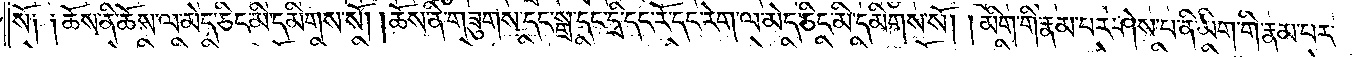སོ། །ཆོས་ནི་ཆོས་ལ་མེད་ཅིང་མི་དམིགས་སོ། །ཆོས་ནི་གཟུགས་དང་སྒྲ་དང་དྲི་དང་རོ་དང་རེག་ལ་མེད་ཅིང་མི་དམིགས་སོ། །མིག་གི་རྣམ་པར་ཤེས་པ་ནི་མིག་གི་རྣམ་པར་
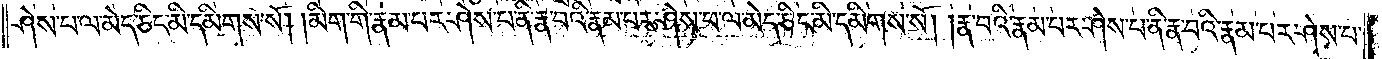ཤེས་པ་ལ་མེད་ཅིང་མི་དམིགས་སོ། །མིག་གི་རྣམ་པར་ཤེས་པ་ནི་རྣ་བའི་རྣམ་པར་ཤེས་པ་ལ་མེད་ཅིང་མི་དམིགས་སོ། །རྣ་བའི་རྣམ་པར་ཤེས་པ་ནི་རྣ་བའི་རྣམ་པར་ཤེས་པ་
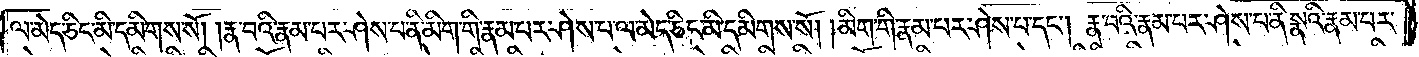ལ་མེད་ཅིང་མི་དམིགས་སོ། །རྣ་བའི་རྣམ་པར་ཤེས་པ་ནི་མིག་གི་རྣམ་པར་ཤེས་པ་ལ་མེད་ཅིང་མི་དམིགས་སོ། །མིག་གི་རྣམ་པར་ཤེས་པ་དང༌། རྣ་བའི་རྣམ་པར་ཤེས་པ་ནི་སྣའི་རྣམ་པར་
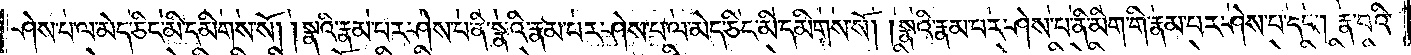ཤེས་པ་ལ་མེད་ཅིང་མི་དམིགས་སོ། །སྣའི་རྣམ་པར་ཤེས་པ་ནི་སྣའི་རྣམ་པར་ཤེས་པ་ལ་མེད་ཅིང་མི་དམིགས་སོ། །སྣའི་རྣམ་པར་ཤེས་པ་ནི་མིག་གི་རྣམ་པར་ཤེས་པ་དང༌། རྣ་བའི་
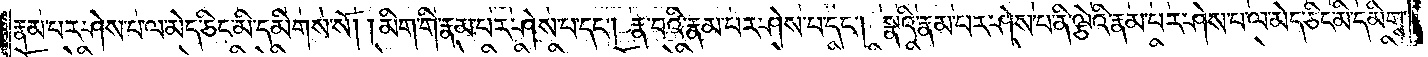རྣམ་པར་ཤེས་པ་ལ་མེད་ཅིང་མི་དམིགས་སོ། །མིག་གི་རྣམ་པར་ཤེས་པ་དང༌། རྣ་བའི་རྣམ་པར་ཤེས་པ་དང༌། སྣའི་རྣམ་པར་ཤེས་པ་ནི་ལྕེའི་རྣམ་པར་ཤེས་པ་ལ་མེད་ཅིང་མི་དམིགས་
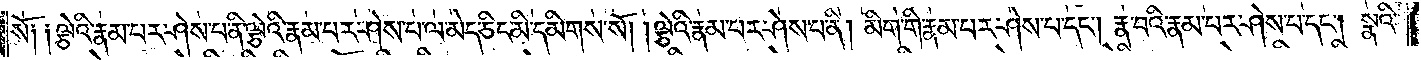སོ། །ལྕེའི་རྣམ་པར་ཤེས་པ་ནི་ལྕེའི་རྣམ་པར་ཤེས་པ་ལ་མེད་ཅིང་མི་དམིགས་སོ། །ལྕེའི་རྣམ་པར་ཤེས་པ་ནི། མིག་གི་རྣམ་པར་ཤེས་པ་དང༌། རྣ་བའི་རྣམ་པར་ཤེས་པ་དང༌། སྣའི་
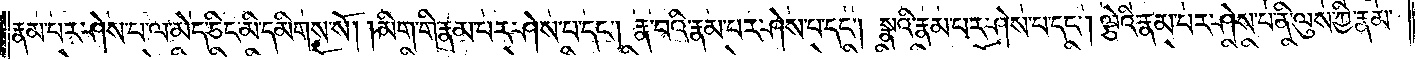རྣམ་པར་ཤེས་པ་ལ་མེད་ཅིང་མི་དམིགས་སོ། །མིག་གི་རྣམ་པར་ཤེས་པ་དང༌། རྣ་བའི་རྣམ་པར་ཤེས་པ་དང༌། སྣའི་རྣམ་པར་ཤེས་པ་དང༌། ལྕེའི་རྣམ་པར་ཤེས་པ་ནི་ལུས་ཀྱི་རྣམ་
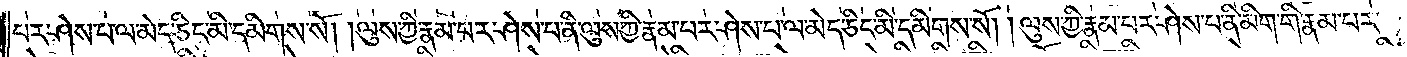པར་ཤེས་པ་ལ་མེད་ཅིང་མི་དམིགས་སོ། །ལུས་ཀྱི་རྣམ་པར་ཤེས་པ་ནི་ལུས་ཀྱི་རྣམ་པར་ཤེས་པ་ལ་མེད་ཅིང་མི་དམིགས་སོ། །ལུས་ཀྱི་རྣམ་པར་ཤེས་པ་ནི་མིག་གི་རྣམ་པར་
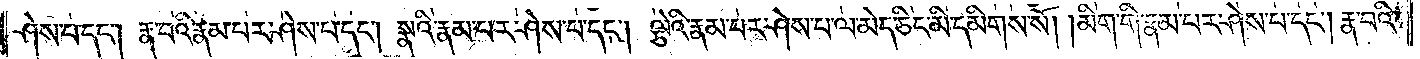ཤེས་པ་དང༌། རྣ་བའི་རྣམ་པར་ཤེས་པ་དང༌། སྣའི་རྣམ་པར་ཤེས་པ་དང༌། ལྕེའི་རྣམ་པར་ཤེས་པ་ལ་མེད་ཅིང་མི་དམིགས་སོ། །མིག་གི་རྣམ་པར་ཤེས་པ་དང༌། རྣ་བའི་
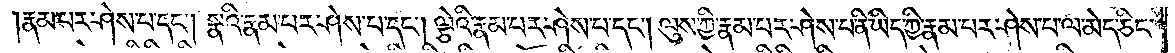རྣམ་པར་ཤེས་པ་དང༌། སྣའི་རྣམ་པར་ཤེས་པ་དང༌། ལྕེའི་རྣམ་པར་ཤེས་པ་དང༌། ལུས་ཀྱི་རྣམ་པར་ཤེས་པ་ནི་ཡིད་ཀྱི་རྣམ་པར་ཤེས་པ་ལ་མེད་ཅིང་
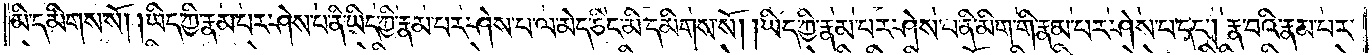མི་དམིགས་སོ། །ཡིད་ཀྱི་རྣམ་པར་ཤེས་པ་ནི་ཡིད་ཀྱི་རྣམ་པར་ཤེས་པ་ལ་མེད་ཅིང་མི་དམིགས་སོ། །ཡིད་ཀྱི་རྣམ་པར་ཤེས་པ་ནི་མིག་གི་རྣམ་པར་ཤེས་པ་དང༌། རྣ་བའི་རྣམ་པར་
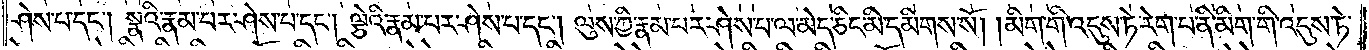ཤེས་པ་དང༌། སྣའི་རྣམ་པར་ཤེས་པ་དང༌། ལྕེའི་རྣམ་པར་ཤེས་པ་དང༌། ལུས་ཀྱི་རྣམ་པར་ཤེས་པ་ལ་མེད་ཅིང་མི་དམིགས་སོ། །མིག་གི་འདུས་ཏེ་རེག་པ་ནི་མིག་གི་འདུས་ཏེ་
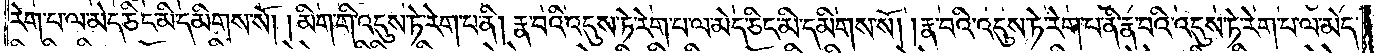རེག་པ་ལ་མེད་ཅིང་མི་དམིགས་སོ། །མིག་གི་འདུས་ཏེ་རེག་པ་ནི། རྣ་བའི་འདུས་ཏེ་རེག་པ་ལ་མེད་ཅིང་མི་དམིགས་སོ། །རྣ་བའི་འདུས་ཏེ་རེག་པ་ནི་རྣ་བའི་འདུས་ཏེ་རེག་པ་ལ་མེད་
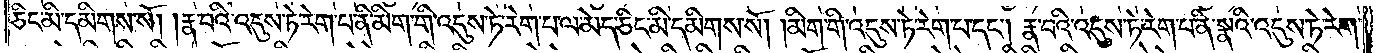ཅིང་མི་དམིགས་སོ། །རྣ་བའི་འདུས་ཏེ་རེག་པ་ནི་མིག་གི་འདུས་ཏེ་རེག་པ་ལ་མེད་ཅིང་མི་དམིགས་སོ། །མིག་གི་འདུས་ཏེ་རེག་པ་དང༌། རྣ་བའི་འདུས་ཏེ་རེག་པ་ནི་སྣའི་འདུས་ཏེ་རེག་
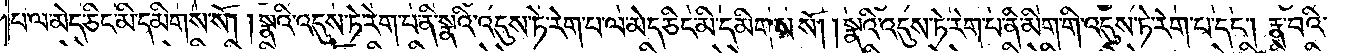པ་ལ་མེད་ཅིང་མི་དམིགས་སོ། །སྣའི་འདུས་ཏེ་རེག་པ་ནི་སྣའི་འདུས་ཏེ་རེག་པ་ལ་མེད་ཅིང་མི་དམིགས་སོ། །སྣའི་འདུས་ཏེ་རེག་པ་ནི་མིག་གི་འདུས་ཏེ་རེག་པ་དང༌། རྣ་བའི་
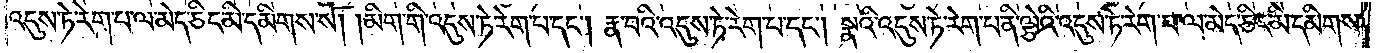འདུས་ཏེ་རེག་པ་ལ་མེད་ཅིང་མི་དམིགས་སོ། །མིག་གི་འདུས་ཏེ་རེག་པ་དང༌། རྣ་བའི་འདུས་ཏེ་རེག་པ་དང༌། སྣའི་འདུས་ཏེ་རེག་པ་ནི་ལྕེའི་འདུས་ཏེ་རེག་པ་ལ་མེད་ཅིང་མི་དམིགས་
